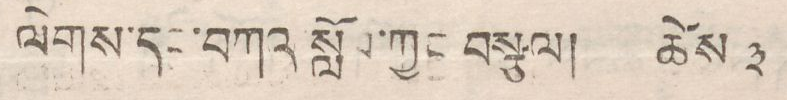ལེགས་དང་བཀའ་སློབ་ཀྱང་བསྩལ། ཚེས ༣
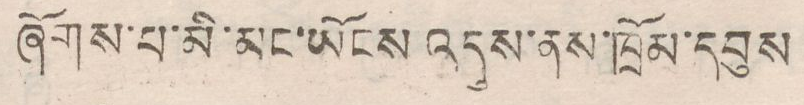ཞོགས་པ་མི་མང་ཡོངས འདུས་ནས་ཁྲོམ་དབུས
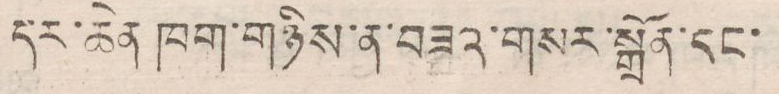དར་ཆེན ཁག་གཉིས་ན་བཟའ་གསར་སྒྲོན་དང་
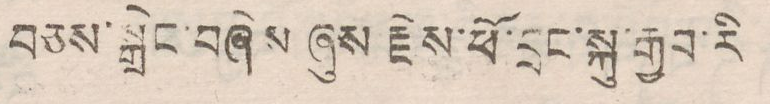བཅས་སྒྲེང་བཞེས ཞུས རྗེས་ཕོ་བྲང་སྐུ་རྒྱབ་རི་
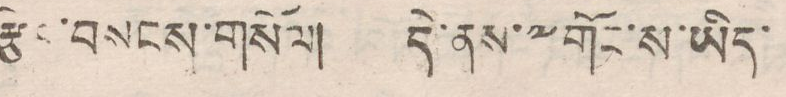རྩེད་བསངས་གསོལ། དེ་ནས་༸གོང་ས་ཡིད་
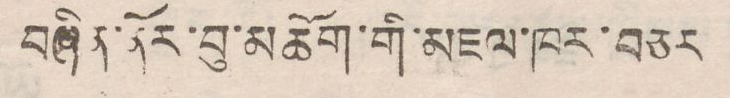བཞིན་ནོར་བུ་མཆོག་གི་མཇལ་ཁར་བཅར
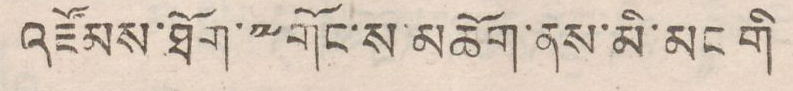འཇོམས་ཐོག་༸གོང་ས་མཆོག་ནས་མི་མང གི
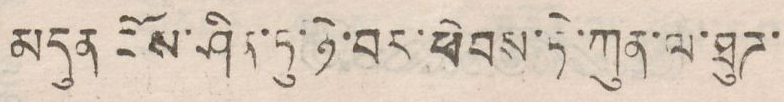མདུན ངོས་ཤིན་ཏུ་ཉེ་བར་ཕེབས་ཏེ་ཀུན་ལ་ཐུཌ་
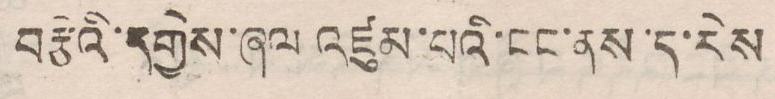བརྩེའི་དགྱེས་ཞལ འཛུམ་པའི་ངང་ནས་ད་རེས
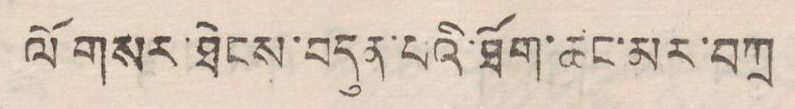ལོ གསར་ཐེངས་བདུན་པའི་ཐོག་ཚང་མར་བཀྲ
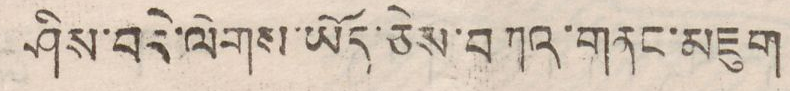ཤིས་བདེ་ལེགས་ཡོད་ཅེས་བཀའ་གནང་མཇུག
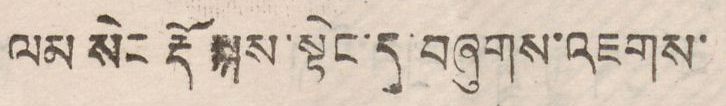ལམ སེང རྡོ་སྐས་སྟེང་དུ བཞུགས་འཇགས་
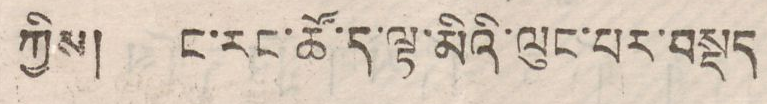ཀྱིས། ང་རང་ཚོ་ད་ལྟ་མིའི་ལུང་པར་བསྡད
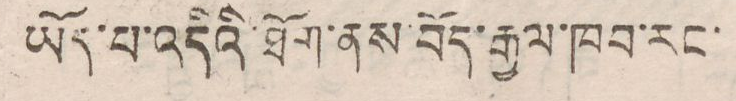ཡོད་པ་འདིའི་ཐོག་ནས་བོད་རྒྱལ་ཁབ་རང་
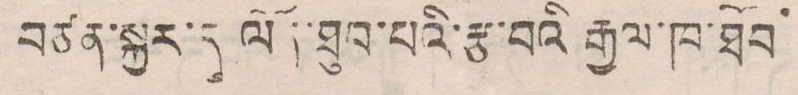བཙན་སྐྱར་དུ ལོན་ཐུབ་པའི་རྩ་བའི རྒྱལ་ཁ་ཐོབ་
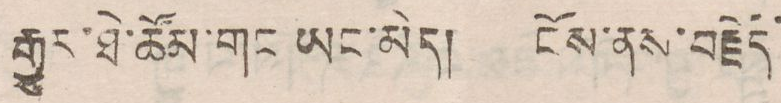རྒྱུར་ཐེ་ཚོམ་གང ཡང་མེད། ངོས་ནས་བརྗོད
